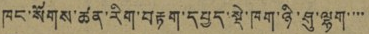ཁང་སོགས་ཚན་རིག་བརྟག་དཔྱད་སྡེ་ཁག་ཉི་ཤུ་ལྷག་་་་
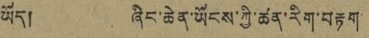ཡོད། ཞིང་ཆེན་ཡོངས་ཀྱི་ཚན་རིག་བརྟག་
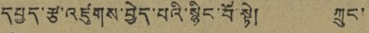དཔྱད་རྩ་འཛུགས་བྱེད་པའི་སྙིང་པོ་སྟེ། ཀྲུང་
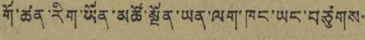གོ་ཚན་རིག་ཡོན་མཚོ་སྔོན་ཡན་ལག་ཁང་ཡང་བཙུགས་
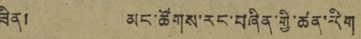ཟིན། མང་ཚོགས་རང་བཞིན་གྱི་ཚན་རིག
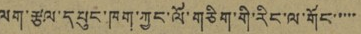ལག་རྩལ་དཔུང་ཁག་ཀྱང་ལོ་གཅིག་གི་རིང་ལ་གོང་་་་་
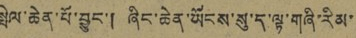སྤེལ་ཆེན་པོ་བྱུང་། ཞིང་ཆེན་ཡོངས་སུ་ད་ལྟ་གཞི་རིམ་
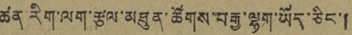ཚན་རིག་ལག་རྩལ་མཐུན་ཚོགས་བརྒྱ་ལྷག་ཡོད་ཅིང་།
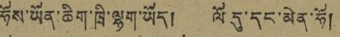ཧོས་ཡོན་ཆིག་ཁྲི་ལྷག་ཡོད། ལོ དུ་དང་མེན་ཧོ།
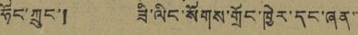ཧོང་ཀྲུང་། ཟི་ལིང་སོགས་གྲོང་ཁྱེར་དང་ཞན་་
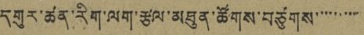དགུར་ཚན་རིག་ལག་རྩལ་མཐུན་ཚོགས་བཙུགས་་་་་་་་་
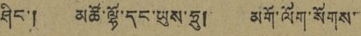ཤིང་། མཚོ་ལྷོ་དང་ཡུས་ཧྲུ། མགོ་ལོག་སོགས་
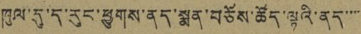ཁུལ་དུ་ད་རུང་ཕྱུགས་ནད་སྨན་བཅོས་ཚོད་ལྟའི་ནད་་་་
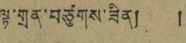ལྟ་གྲན་བཙུགས་ཟིན། །
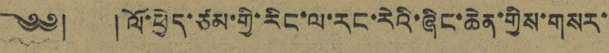༄༅། །ལོ་ཕྱེད་ཙམ་གྱི་རིང་ལ་རང་རེའི་ཞིང་ཆེན་གྱིས་གསར་
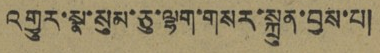འགྱུར་སྣ་སུམ་ཅུ་ལྷག་གསར་སྐྲུན་བྱས་པ།
